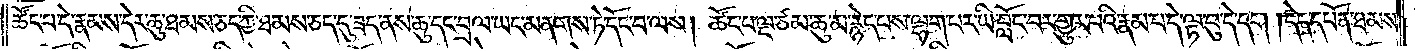ཚོང་པ་དེ་རྣམས་དེར་ཆུ་ཐམས་ཅད་ཀྱི་ཐམས་ཅད་དུ་ཟད་ནས་ཆུ་དང་བྲལ་ཡང་མནགས་ཏེ་དོང་བ་ལས། ཚོང་པ་ལྔ་ཙམ་ཆུ་མ་རྙེད་པས་ལྷག་པར་ཡི་བློང་བར་གྱུར་པའི་རྣམ་པ་དེ་ལྟ་བུ་དེ་དག །དེད་དཔོན་ཐམས་
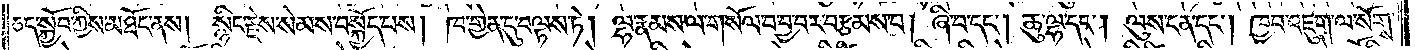ཅད་སྐྱོབ་ཀྱིས་མཐོང་ནས། སྙིང་རྗེས་སེམས་བསྐྱོད་པས། ཁ་གྱེན་དུ་བལྟས་ཏེ། ལྷ་རྣམས་ལ་གསོལ་བ་བྱ་བར་བརྩམས་པ། ཞི་བ་དང༌། ཆུ་ལྷ་དང༌། ལུས་ངན་དང༌། ཁྱབ་འཇུག་ལ་སོགས་
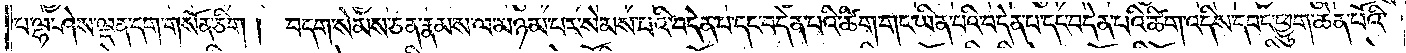པ་ལྷ་ཤེས་ལྡན་དག་གསོན་ཅིག །བདག་སེམས་ཅན་རྣམས་ལ་མཉམ་པར་སེམས་པའི་བདེན་པ་དང་བདེན་པའི་ཚིག་གང་ཡིན་པའི་བདེན་པ་དང་བདེན་པའི་ཚིག་འདིས་དབང་ཕྱུག་ཆེན་པོའི་
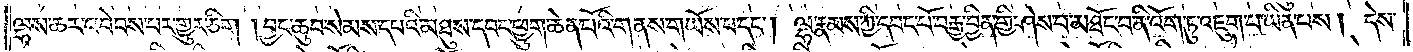ལྷས་ཆར་འབེབས་པར་གྱུར་ཅིག །བྱང་ཆུབ་སེམས་དཔའི་མཐུས་དབང་ཕྱུག་ཆེན་པོའི་གནས་གཡོས་པ་དང༌། ལྷ་རྣམས་ཀྱི་དབང་པོ་བརྒྱ་བྱིན་གྱི་ཤེས་པ་མཐོང་བ་ནི་འོག་ཏུ་འཇུག་པ་ཡིན་པས། དེས་
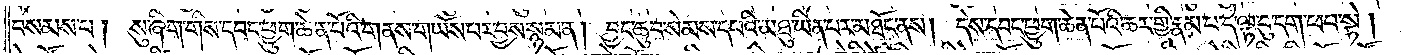བསམས་པ། སུ་ཞིག་གིས་དབང་ཕྱུག་ཆེན་པོའི་གནས་གཡོས་པར་བྱས་སྙམ་ན། བྱང་ཆུབ་སེམས་དཔའི་མཐུ་ཡིན་པར་མཐོང་ནས། དེས་དབང་ཕྱུག་ཆེན་པོའི་ཆར་གྱི་རྣམ་པ་དེ་ལྟ་བུ་དག་ཕབ་སྟེ།
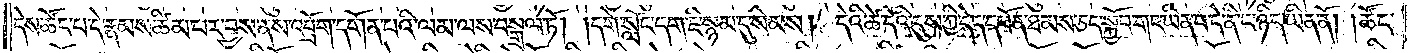དེས་ཚོང་པ་དེ་རྣམས་ཚིམ་པར་བྱས་ནས་འབྲོག་དགོན་པའི་ལམ་ལས་བསྒྲལ་ཏོ། །དགེ་སློང་དག་ཇི་སྙམ་དུ་སེམས། །དེའི་ཚེ་དུས་ཀྱི་དེད་དཔོན་ཐམས་ཅད་སྐྱོབ་པ་གང་ཡིན་པ་དེ་ནི་ང་ཉིད་ཡིན་ནོ། །ཚོང་
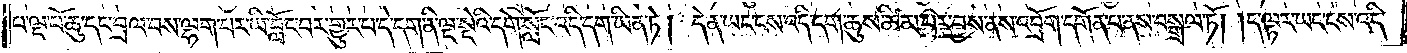པ་ལྔ་པོ་ཆུ་དང་བྲལ་བས་ལྷག་པར་ཡི་བློང་བར་གྱུར་པ་དེ་དག་ནི་ལྔ་སྡེའི་དགེ་སློང་འདི་དག་ཡིན་ཏེ། དེ་ན་ཡང་ངས་འདི་དག་ཆུས་ཚིམ་པར་བྱས་ནས་འབྲོག་དགོན་པ་ནས་བསྒྲལ་ཏོ། །ད་ལྟར་ཡང་ངས་འདི་
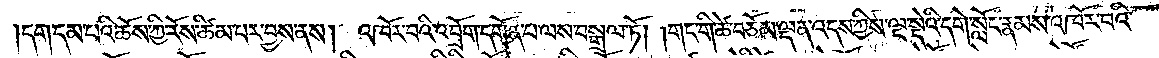དག་དམ་པའི་ཆོས་ཀྱི་རོས་ཚིམ་པར་བྱས་ནས། འཁོར་བའི་འབྲོག་དགོན་པ་ལས་བསྒྲལ་ཏོ། གང་གི་ཚེ་བཅོམ་ལྡན་འདས་ཀྱིས་ལྔ་སྡེའི་དགེ་སློང་རྣམས་འཁོར་བའི་
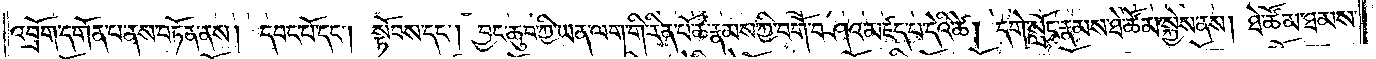འབྲོག་དགོན་པ་ནས་བཏོན་ནས། དབང་པོ་དང༌། སྟོབས་དང༌། བྱང་ཆུབ་ཀྱི་ཡན་ལག་གི་རིན་པོ་ཆེ་རྣམས་ཀྱི་བགོ་བཤའ་མཛད་པ་དེའི་ཚེ། དགེ་སློང་རྣམས་ཐེ་ཚོམ་སྐྱེས་ནས། ཐེ་ཚོམ་ཐམས་
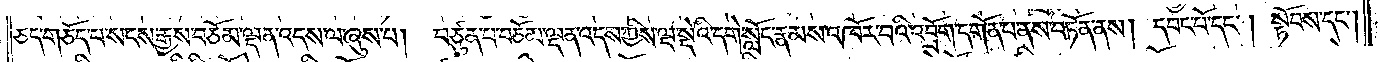ཅད་གཅོད་པ་སངས་རྒྱས་བཅོམ་ལྡན་འདས་ལ་ཞུས་པ། བཙུན་པ་བཅོམ་ལྡན་འདས་ཀྱིས་ལྔ་སྡེའི་དགེ་སློང་རྣམས་འཁོར་བའི་འབྲོག་དགོན་པ་ནས་བཏོན་ནས། དབང་པོ་དང༌། སྟོབས་དང༌།
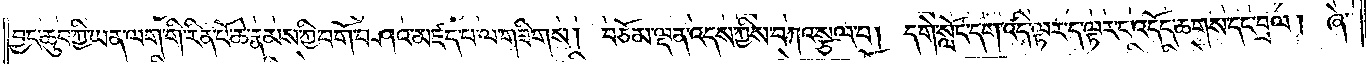བྱང་ཆུབ་ཀྱི་ཡན་ལག་གི་རིན་པོ་ཆེ་རྣམས་ཀྱི་བགོ་བཤའ་མཛད་པ་ལ་གཟིགས། བཅོམ་ལྡན་འདས་ཀྱིས་བཀའ་སྩལ་པ། དགེ་སློང་དག་འདི་ལྟར་ད་ལྟར་ང་འདོད་ཆགས་དང་བྲལ། ཞེ་
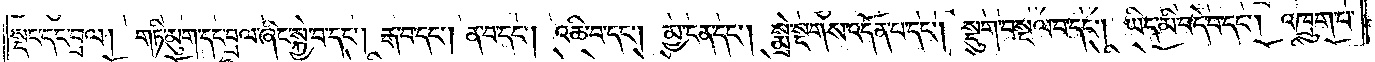སྡང་དང་བྲལ། གཏི་མུག་དང་བྲལ་ཞིང་སྐྱེ་བ་དང༌། རྒ་བ་དང༌། ན་བ་དང༌། འཆི་བ་དང༌། མྱ་ངན་དང༌། སྨྲེ་སྔགས་འདོན་པ་དང༌། སྡུག་བསྔལ་བ་དང༌། ཡིད་མི་བདེ་བ་དང༌། འཁྲུག་པ་
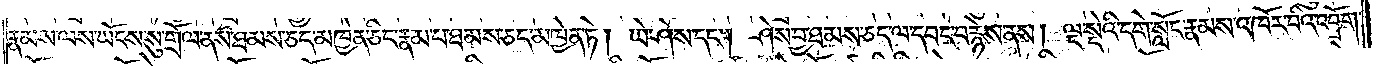རྣམས་ལས་ཡོངས་སུ་གྲོལ་ནས་ཐམས་ཅད་མཁྱེན་ཅིང་རྣམ་པ་ཐམས་ཅད་མཁྱེན་ཏེ། ཡེ་ཤེས་དང༌། ཤེས་བྱ་ཐམས་ཅད་ལ་དབང་བརྙེས་ནས། ལྔ་སྡེའི་དགེ་སློང་རྣམས་འཁོར་བའི་འབྲོག་
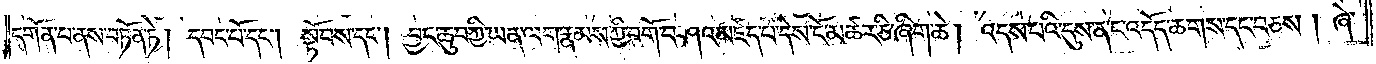དགོན་པ་ནས་བཏོན་ཏེ། དབང་པོ་དང༌། སྟོབས་དང༌། བྱང་ཆུབ་ཀྱི་ཡན་ལག་རྣམས་ཀྱི་བགོ་བཤའ་མཛད་པ་དེས་ངོ་མཚར་ཅི་ཞིག་ཆེ། འདས་པའི་དུས་ན་ང་འདོད་ཆགས་དང་བཅས། ཞེ་
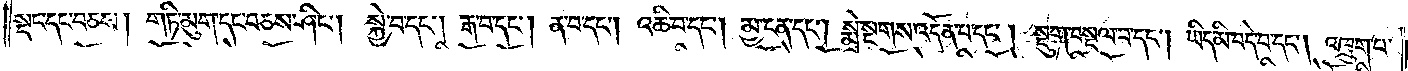སྡང་དང་བཅས། གཏི་མུག་དང་བཅས་ཤིང༌། སྐྱེ་བ་དང༌། རྒ་བ་དང༌། ན་བ་དང༌། འཆི་བ་དང༌། མྱ་ངན་དང༌། སྨྲེ་སྔགས་འདོན་པ་དང༌། སྡུག་བསྔལ་བ་དང༌། ཡིད་མི་བདེ་བ་དང་། འཁྲུག་པ་
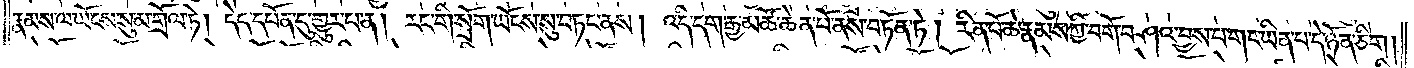རྣམས་ལ་ཡོངས་སུ་མ་གྲོལ་ཏེ། དེད་དཔོན་དུ་གྱུར་པ་ན། རང་གི་སྲོག་ཡོངས་སུ་བཏང་ནས། འདི་དག་རྒྱ་མཚོ་ཆེན་པོ་ནས་བཏོན་ཏེ། རིན་པོ་ཆེ་རྣམས་ཀྱི་བགོ་བཤའ་བྱས་པ་གང་ཡིན་པ་དེ་ཉོན་ཅིག །
